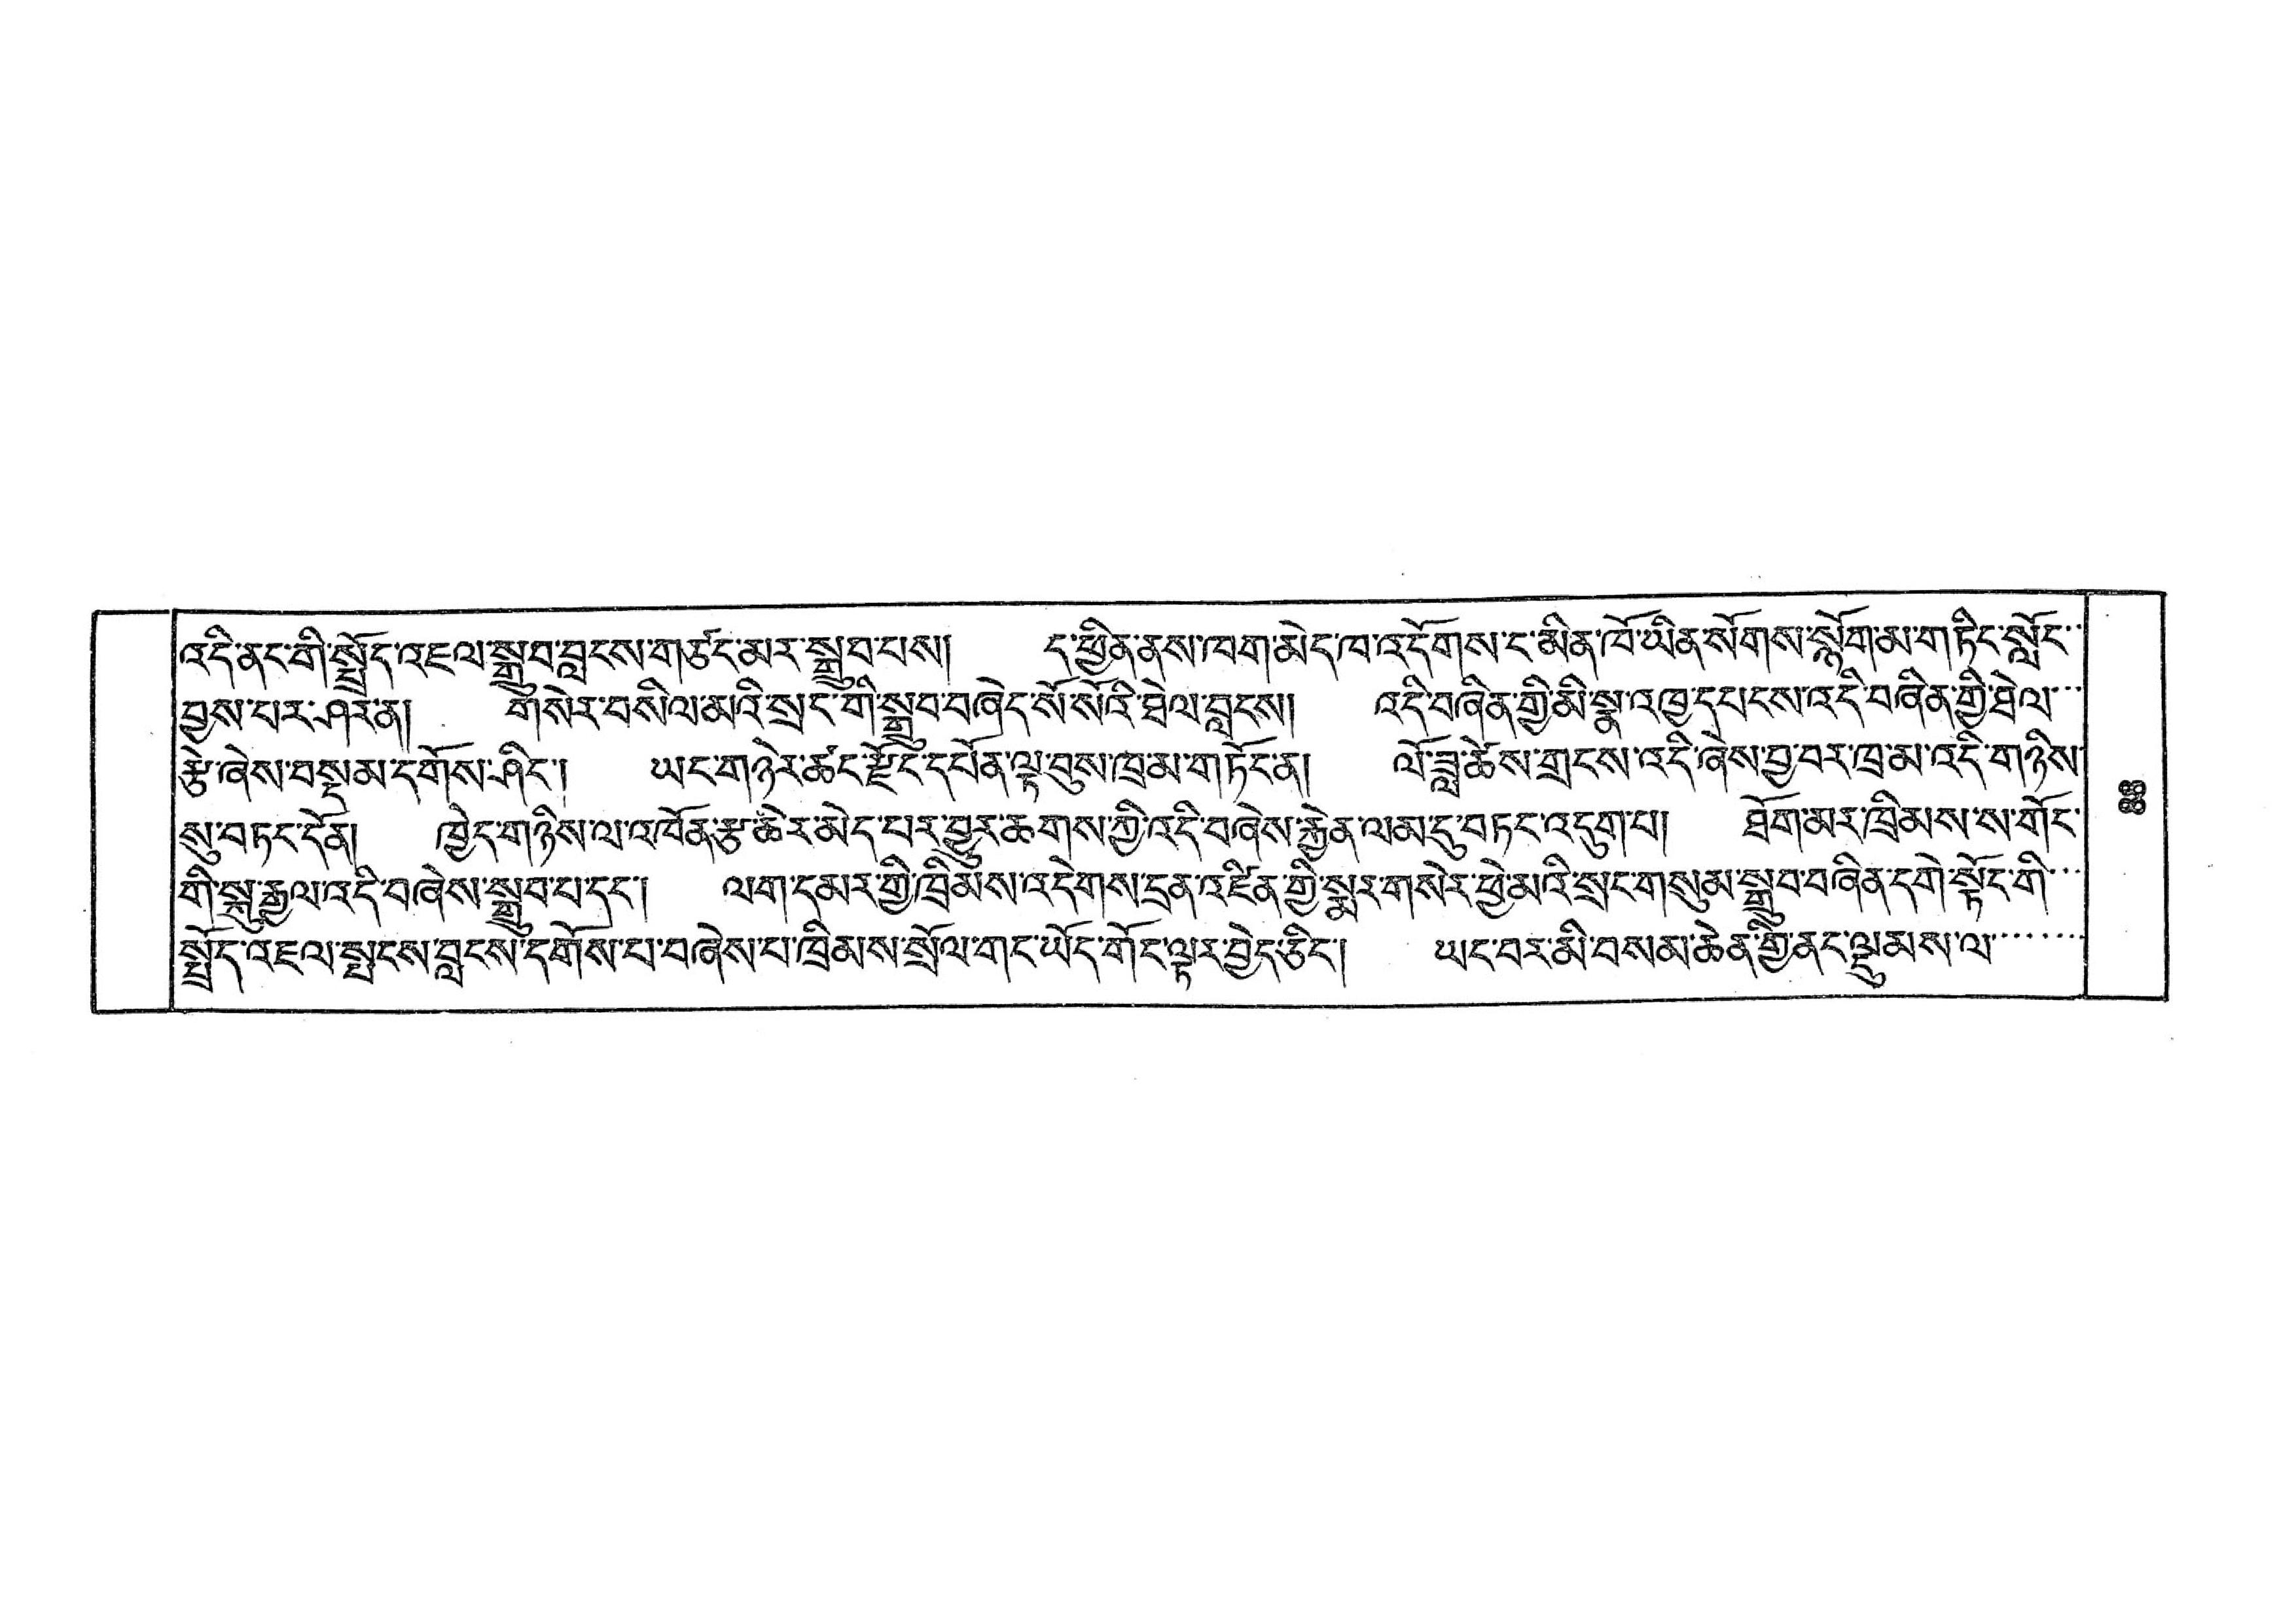འདི་ནང་གི་སྤྲོད་འཇལ་སྒྲུབ་་བླངས་གཙང་མར་སྒྲུབ་པས། ད་ཕྱིན་ནས་ཁག་མེད་ཁ་འདོགས་ང་མིན་ཁོ་ཡིན་སོགས་སྙོག་མ་གཏིང་སློང་་
བྱས་པར་ཤར་ན། གསེར་བསིལ་མའི་སྲང་གི་སྒྲུབ་ཞེད་སོ་སོའི་ཐེལ་བླངས། འདི་ཞིན་གྱི་མི་སྣ་འཁྱ་དཔངས་འདི་བཞིན་གྱི་ཐེལ་་་
རྩེ་ཞེས་བསྡམ་དགོས་ཤིང་། ཡང་གཉེར་ཚང་རྫོང་དཔོན་ལྟ་བུས་ཁྲ་མ་གཏོང་ན། ལོ་ཟླ་ཚེས་གྲངས་འདི་ཞེས་བྱ་བར་ཁྲ་མ་འདི་གཉིས་
སུ་བཏང་དོན། ཁྱེད་གཉིས་ལ་འཁོན་རྩ་ཆེར་མེད་པར་བྱུར་ཆགས་ཀྱི་འདི་བཞེས་རྐྱེན་ལམ་དུ་བཏང་འདུག་པ། ཐོག་མར་ཁྲིམས་ས་གོང་
གི་སྐུ་རྒྱལ་འདི་བཞེས་སྒྲུབ་པ་དང་། ལག་དམར་གྱི་ཁྲིམས་འདེགས་དྲན་འཛིན་གྱི་སྨར་གསེར་ཕྱེ་མའི་སྲང་གསུམ་སྒྲུབ་བཞིན་དགེ་སྟོང་གི་་་
སྤྲོད་འཇུལ་སྤངས་བླངས་དགོས་པ་བཞེས་པ་ཁྲིམས་སྲོལ་གང་ཡོད་གོང་ལྟར་བྱེད་ཅིང་། ཡང་བར་མི་བསམ་ཆེན་གྱི་ནང་ལྡུམས་ལ་་་་་་་
